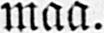maa.
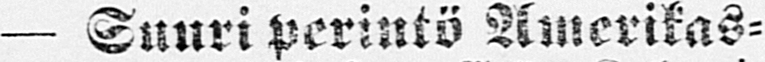— Suuri perintö Amerikas-
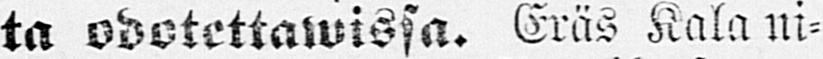ta odotettawissa. Eräs Kala ui-
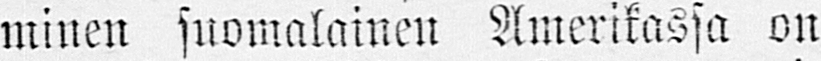minen suomalainen Amerikassa on
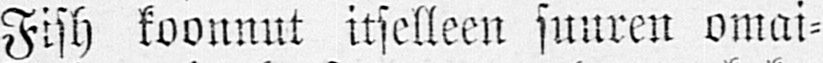Fish koonnut itselleen suuren omai-
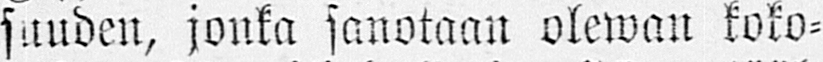suuden, jonka sanotaan olewan koko-
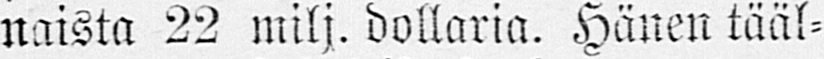naista 22 milj. dollaria. Hänen tääl-
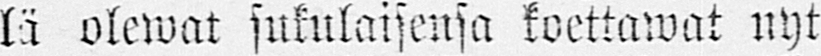lä olewat sukulaisensa koettawat nyt
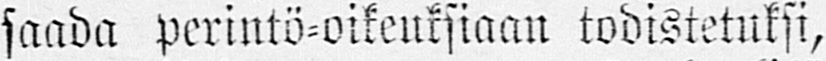saada perintö-oikeuksiaan todistetuksi,
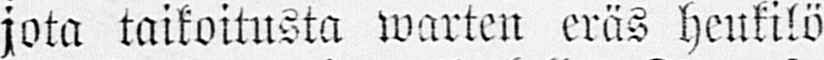jota taikoitusta warten eräs heukilö
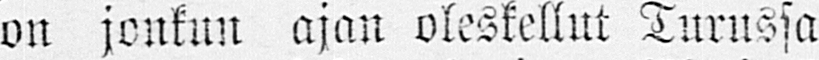on jonkun ajan oleskellut Turussa
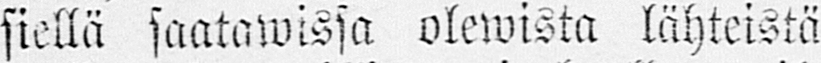siellä saatawissa olewista lähteistä
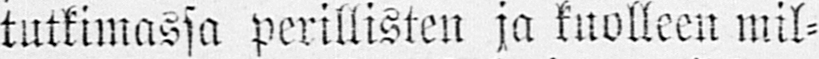tutkimassa perillisten ja kuolleen mil-
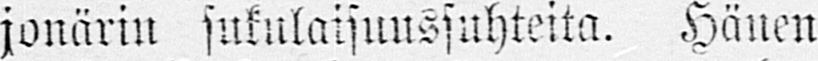jonärin sukulaisuussuhteita. Hänen
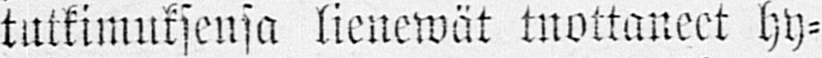tutkimuksensa lienewät tuottaneet hy-
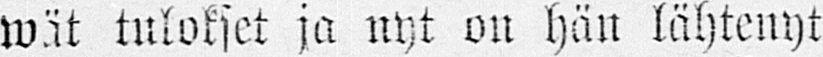wät tulokset ja nyt on hän lähtenyt
